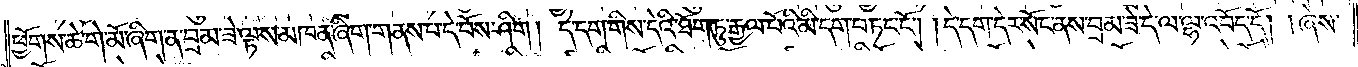ཕྱོགས་ཆེ་གེ་མོ་ཞིག་ན་བྲམ་ཟེ་ལྟས་མཁན་ཞིག་གནས་པ་དེ་བོས་ཤིག། དེ་དག་གིས་དེའི་ཐོག་ཏུ་རྒྱལ་པོའི་མི་དག་བཏང་ངོ༌། །དེ་དག་དེར་སོང་ནས་བྲམ་ཟེ་དེ་ལ་ལྷ་འབོད་དོ། །ཞེས་
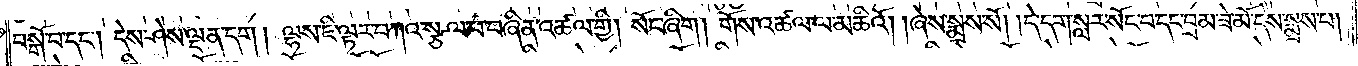བསྒོ་བ་དང༌། དེས་ཤེས་ལྡན་དག། ལྷས་ཇི་ལྟར་བཀའ་སྩལ་པ་བཞིན་འཚལ་གྱི། སོང་ཞིག། གོས་འཚལ་ལ་མཆིའོ། །ཞེས་སྨྲས་སོ། །དེ་དག་སླར་སོང་བ་དང་བྲམ་ཟེ་མོ་དེས་སྨྲས་པ།
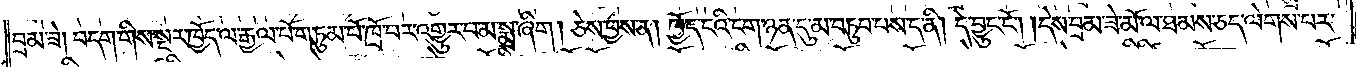བྲམ་ཟེ། བདག་གིས་སྔར་ཁྱོད་ལ་རྒྱལ་པོ་གཏུམ་པོ་ཁྲོ་བར་འགྱུར་བ་མ་སྨྲ་ཞིག། ཅེས་བྱས་ན། ཁྱོད་ངའི་ངག་ཉན་དུ་མ་བཏུབ་པས་ད་ནི། དེ་བྱུང་ངོ༌། །དེས་བྲམ་ཟེ་མོ་ལ་ཐམས་ཅད་ལེགས་པར་
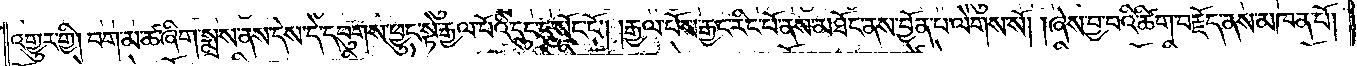འགྱུར་གྱི། བག་མ་ཚ་ཞིག་སྨྲས་ནས་དེས་དེ་དབུགས་ཕྱུང་སྟེ་རྒྱལ་པོའི་དྲུང་དུ་སོང་ངོ༌། །རྒྱལ་པོས་རྒྱང་རིང་པོ་ནས་མཐོང་ནས་བྱོན་པ་ལེགས་སོ། །ཞེས་བྱ་བའི་ཚིག་བརྗོད་ནས་མཁན་པོ།
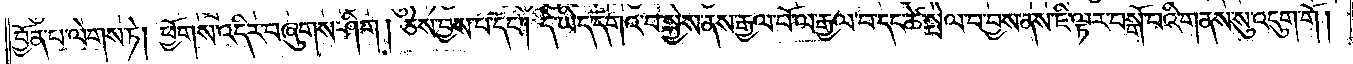བྱོན་པ་ལེགས་ཏེ། ཕྱོགས་འདིར་བཞུགས་ཤིག། ཅེས་བྱས་པ་དང༌། དེ་ཡིད་དགའ་བ་སྐྱེས་ནས་རྒྱལ་པོ་ལ་རྒྱལ་བ་དང་ཚེ་སྤེལ་བ་བྱས་ནས་ཇི་ལྟར་བསྒོ་བའི་གནས་སུ་འདུག་གོ །
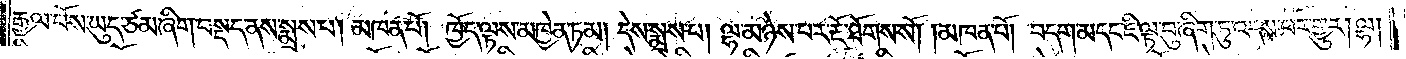རྒྱལ་པོས་ཡུད་ཙམ་ཞིག་བསྡད་ནས་སྨྲས་པ། མཁན་པོ། ཁྱོད་ལྟས་མཁྱེན་ཏམ། དེས་སྨྲས་པ། ལྷ་མཉེས་པར་རྡོ་ཐོགས་སོ། །མཁན་པོ། བདག་མདང་ཇི་ལྟ་བུ་ཞིག་ཏུ་འདས་པར་གྱུར། ལྷ།
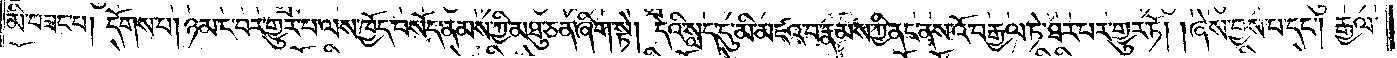མི་བཟང་པ། དོགས་པ། ཉམ་ང་བར་གྱུར་པ་ལས་ཁྱོད་བསོད་ནམས་ཀྱི་མཐུ་ཅན་ཞིག་སྟེ། དེའི་སླད་དུ་མི་མཛའ་བ་རྣམས་ཀྱི་ནང་ནས་འོ་བརྒྱལ་ཏེ་ཐར་པར་གྱུར་ཏོ། །ཞེས་བྱས་པ་དང༌། རྒྱལ་
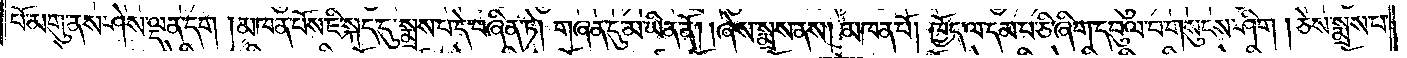པོ་མགུ་ནས་ཤེས་ལྡན་དག །མཁན་པོས་ཇི་སྐད་དུ་སྨྲས་པ་དེ་བཞིན་ཏེ། གཞན་དུ་མ་ཡིན་ནོ། །ཞེས་སྨྲས་ནས། མཁན་པོ། ཁྱོད་ལ་དམ་པ་ཅི་ཞིག་དབུལ་པ་གསུངས་ཤིག །ཅེས་སྨྲས་པ་
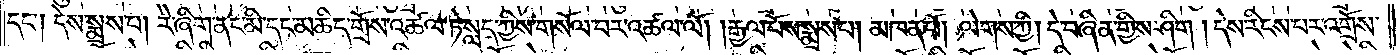དང༌། དེས་སྨྲས་པ། རེ་ཞིག་ནང་མི་དང་མཆིད་གྲོས་འཚལ་ཏེ་སླད་ཀྱིས་གསོལ་བར་འཚལ་ལོ། །རྒྱལ་པོས་སྨྲས་པ། མཁན་པོ། ལེགས་ཀྱི། དེ་བཞིན་གྱིས་ཤིག །དེས་རིངས་པར་འགྲོས་
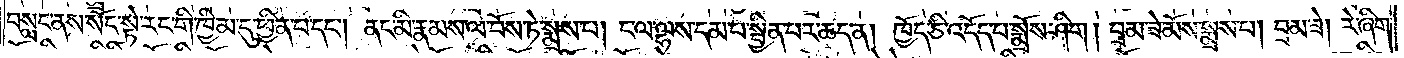བསླང་ནས་སོང་སྟེ་རང་གི་ཁྱིམ་དུ་ཕྱིན་པ་དང༌། ནང་མི་རྣམས་ལ་པོས་ཏེ་སྨྲས་པ། ང་ལ་ལྷས་དམ་པ་སྦྱིན་པར་ཆད་ན། ཁྱོད་ཅི་འདོད་པ་སྨྲོས་ཤིག། བྲམ་ཟེ་མོས་སྨྲས་པ། བྲམ་ཟེ། རེ་ཞིག་
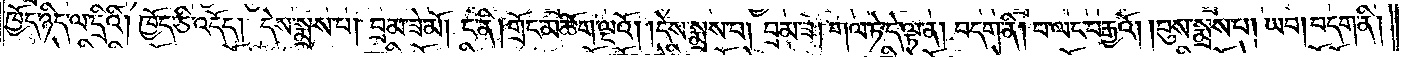ཁྱོད་ཉིད་ལ་དྲིའི། ཁྱོད་ཅི་འདོད། དེས་སྨྲས་པ། བྲམ་ཟེ་མོ། ང་ནི། གྲོང་མཆོག་ལྔའོ། །དེས་སྨྲས་པ། བྲམ་ཟེ། གལ་ཏེ་དེ་ལྟ་ན། བདག་ནི། བ་ལང་བརྒྱའོ། །བུས་སྨྲས་པ། ཡབ། བདག་ནི།
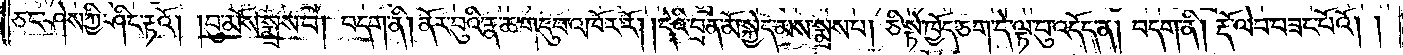ཅང་ཤེས་ཀྱི་ཤིང་རྟའོ། །བུ་མོས་སྨྲས་པ། བདག་ནི། ནོར་བུའི་རྣ་ཆ་གདུབ་འཁོར་རོ། །དེའི་བྲན་མོ་སྐྱེད་མས་སྨྲས་པ། ཅི་སྟེ་ཁྱོད་ཅག་དེ་ལྟ་བུ་འདོད་ན། བདག་ནི། རྡོ་ལེབ་བཟང་པོའོ། །
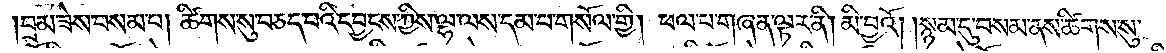བྲམ་ཟེས་བསམ་པ། ཚིགས་སུ་བཅད་པའི་དབྱངས་ཀྱིས་ལྷ་ལས་དམ་པ་གསོལ་གྱི། ཕལ་པ་གཞན་ལྟར་ནི། མི་བྱའོ། །སྙམ་དུ་བསམ་ནས་ཚིགས་སུ་
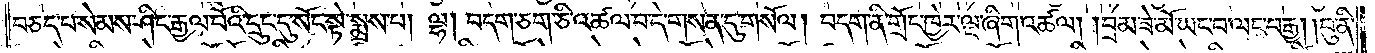བཅད་པ་སེམས་ཤིང་རྒྱལ་པོའི་དྲུང་དུ་སོང་སྟེ་སྨྲས་པ། ལྷ། བདག་ཅག་ཅི་འཚལ་བ་དེ་གསན་དུ་གསོལ། བདག་ནི་གྲོང་ཁྱེར་ལྔ་ཞིག་འཚལ། །བྲམ་ཟེ་མོ་ཡང་བ་ལང་བརྒྱ། །བུ་ནི་
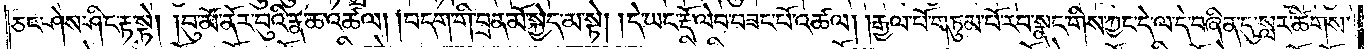ཅང་ཤེས་ཤིང་རྟ་སྟེ། །བུ་མོ་ནོར་བུའི་རྣ་ཆ་འཚལ། །བདག་གི་བྲན་མོ་སྐྱེད་མ་སྟེ། །དེ་ཡང་རྡོ་ལེབ་བཟང་པོ་འཚལ། །རྒྱལ་པོ་གཏུམ་པོ་རབ་སྣང་གིས་ཀྱང་དེ་ལ་དེ་བཞིན་དུ་སླར་ཚིགས་
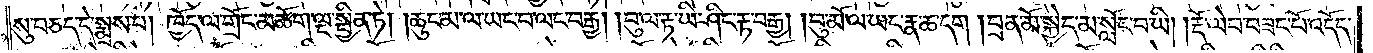སུ་བཅད་དེ་སྨྲས་པ། ཁྱོད་ལ་གྲོང་མཆོག་ལྔ་སྦྱིན་ཏེ། །ཆུང་མ་ལ་ཡང་བ་ལང་བརྒྱ། །བུ་ལ་རྟ་ཡི་ཤིང་རྟ་བརྒྱ། །བུ་མོ་ལ་ཡང་རྣ་ཆ་དག །བྲན་མོ་སྐྱེད་མ་སློང་བ་ཡི། །རྡོ་ལེབ་བཟང་པོ་འདོད་
